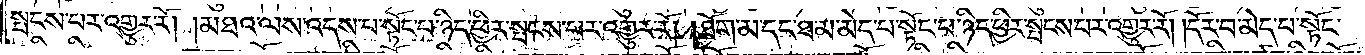སྤངས་པར་འགྱུར་རོ། །མཐའ་ལས་འདས་པ་སྟོང་པ་ཉིད་ཕྱིར་སྤངས་པར་འགྱུར་རོ། །ཐོག་མ་དང་ཐ་མ་མེད་པ་སྟོང་པ་ཉིད་ཕྱིར་སྤངས་པར་འགྱུར་རོ། །དོར་བ་མེད་པ་སྟོང་
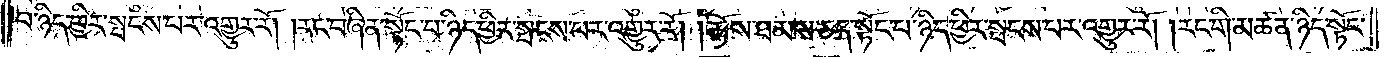པ་ཉིད་ཕྱིར་སྤངས་པར་འགྱུར་རོ། །རང་བཞིན་སྟོང་པ་ཉིད་ཕྱིར་སྤངས་པར་འགྱུར་རོ། །ཆོས་ཐམས་ཅད་སྟོང་པ་ཉིད་ཕྱིར་སྤངས་པར་འགྱུར་རོ། །རང་གི་མཚན་ཉིད་སྟོང་
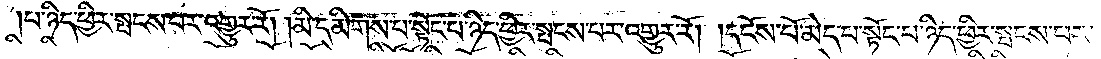པ་ཉིད་ཕྱིར་སྤངས་པར་འགྱུར་རོ། །མི་དམིགས་པ་སྟོང་པ་ཉིད་ཕྱིར་སྤངས་པར་འགྱུར་རོ། །དངོས་པོ་མེད་པ་སྟོང་པ་ཉིད་ཕྱིར་སྤངས་པར་
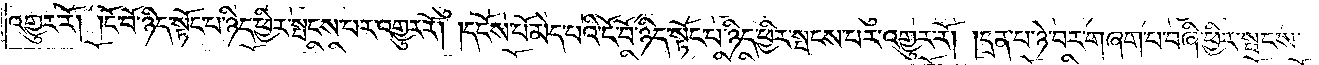འགྱུར་རོ། །ངོ་བོ་ཉིད་སྟོང་པ་ཉིད་ཕྱིར་སྤངས་པར་འགྱུར་རོ། །དངོས་པོ་མེད་པའི་ངོ་བོ་ཉིད་སྟོང་པ་ཉིད་ཕྱིར་སྤངས་པར་འགྱུར་རོ། །དྲན་པ་ཉེ་བར་གཞག་པ་བཞི་ཕྱིར་སྤངས་
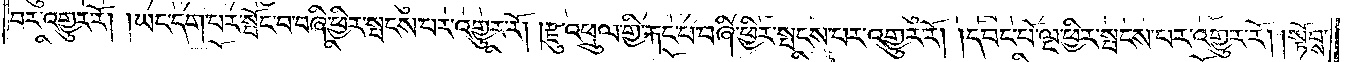བར་འགྱུར་རོ། །ཡང་དག་པར་སྤོང་བ་བཞི་ཕྱིར་སྤངས་པར་འགྱུར་རོ། །རྫུ་འཕྲུལ་གྱི་རྐང་པ་བཞི་ཕྱིར་སྤངས་པར་འགྱུར་རོ། །དབང་པོ་ལྔ་ཕྱིར་སྤངས་པར་འགྱུར་རོ། །སྟོབས་
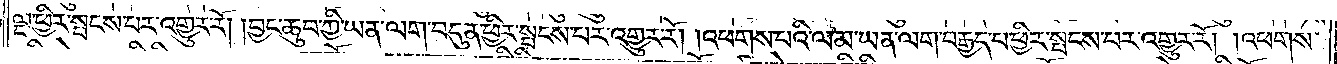ལྔ་ཕྱིར་སྤངས་པར་འགྱུར་རོ། །བྱང་ཆུབ་ཀྱི་ཡན་ལག་བདུན་ཕྱིར་སྤངས་པར་འགྱུར་རོ། །འཕགས་པའི་ལམ་ཡན་ལག་བརྒྱད་པ་ཕྱིར་སྤངས་པར་འགྱུར་རོ། །འཕགས་
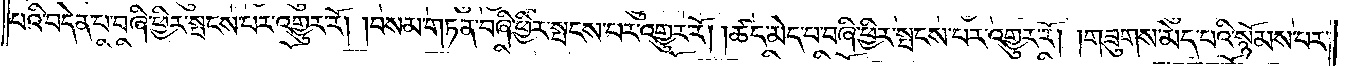པའི་བདེན་པ་བཞི་ཕྱིར་སྤངས་པར་འགྱུར་རོ། །བསམ་གཏན་བཞི་ཕྱིར་སྤངས་པར་འགྱུར་རོ། །ཚད་མེད་པ་བཞི་ཕྱིར་སྤངས་པར་འགྱུར་རོ། །གཟུགས་མེད་པའི་སྙོམས་པར་
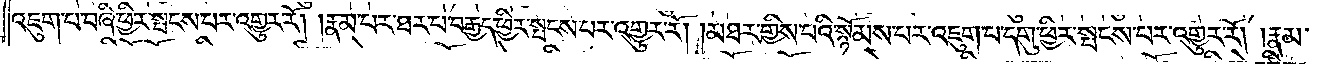འཇུག་པ་བཞི་ཕྱིར་སྤངས་པར་འགྱུར་རོ། །རྣམ་པར་ཐར་པ་བརྒྱད་ཕྱིར་སྤངས་པར་འགྱུར་རོ། །མཐར་གྱིས་པའི་སྙོམས་པར་འཇུག་པ་དགུ་ཕྱིར་སྤངས་པར་འགྱུར་རོ། །རྣམ་
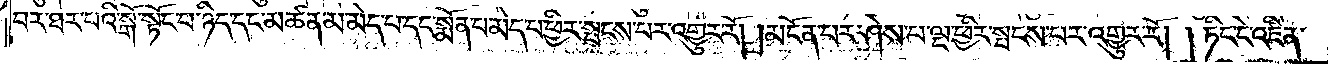པར་ཐར་པའི་སྒོ་སྟོང་པ་ཉིད་དང་མཚན་མ་མེད་པ་དང་སྨོན་པ་མེད་པ་ཕྱིར་སྤངས་པར་འགྱུར་རོ། །མངོན་པར་ཤེས་པ་ལྔ་ཕྱིར་སྤངས་པར་འགྱུར་རོ། །ཏིང་ངེ་འཛིན་
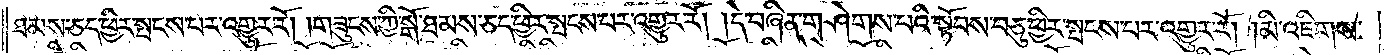ཐམས་ཅད་ཕྱིར་སྤངས་པར་འགྱུར་རོ། །གཟུངས་ཀྱི་སྒོ་ཐམས་ཅད་ཕྱིར་སྤངས་པར་འགྱུར་རོ། །དེ་བཞིན་གཤེགས་པའི་སྟོབས་བཅུ་ཕྱིར་སྤངས་པར་འགྱུར་རོ། །མི་འཇིགས་
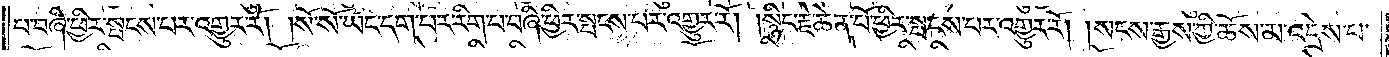པ་བཞི་ཕྱིར་སྤངས་པར་འགྱུར་རོ། །སོ་སོ་ཡང་དག་པར་རིག་པ་བཞི་ཕྱིར་སྤངས་པར་འགྱུར་རོ། །སྙིང་རྗེ་ཆེན་པོ་ཕྱིར་སྤངས་པར་འགྱུར་རོ། །སངས་རྒྱས་ཀྱི་ཆོས་མ་འདྲེས་པ་
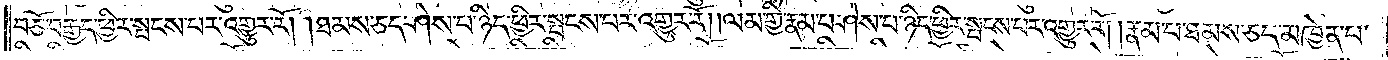བཅོ་བརྒྱད་ཕྱིར་སྤངས་པར་འགྱུར་རོ། །ཐམས་ཅད་ཤེས་པ་ཉིད་ཕྱིར་སྤངས་པར་འགྱུར་རོ། །ལམ་གྱི་རྣམ་པ་ཤེས་པ་ཉིད་ཕྱིར་སྤངས་པར་འགྱུར་རོ། །རྣམ་པ་ཐམས་ཅད་མཁྱེན་པ་
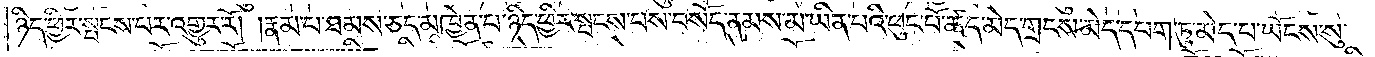ཉིད་ཕྱིར་སྤངས་པར་འགྱུར་རོ། །རྣམ་པ་ཐམས་ཅད་མཁྱེན་པ་ཉིད་ཕྱིར་སྤངས་པས་བསོད་ནམས་མ་ཡིན་པའི་ཕུང་པོ་ཚད་མེད་གྲངས་མེད་དཔག་ཏུ་མེད་པ་ཡོངས་སུ་
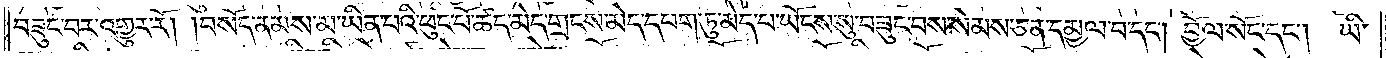བཟུང་བར་འགྱུར་རོ། །བསོད་ནམས་མ་ཡིན་པའི་ཕུང་པོ་ཚད་མེད་གྲངས་མེད་དཔག་ཏུ་མེད་པ་ཡོངས་སུ་བཟུང་བས་སེམས་ཅན་དམྱལ་བ་དང༌། བྱོལ་སོང་དང༌། ཡི་
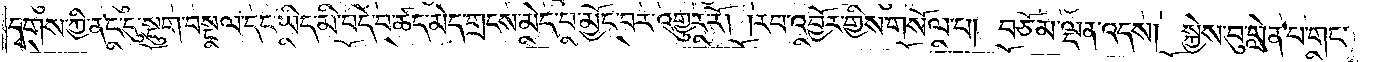དྭགས་ཀྱི་ནང་དུ་སྡུག་བསྔལ་དང་ཡིད་མི་བདེ་བ་ཚད་མེད་གྲངས་མེད་པ་མྱོང་བར་འགྱུར་རོ། །རབ་འབྱོར་གྱིས་གསོལ་པ། བཅོམ་ལྡན་འདས། སྐྱེས་བུ་གླེན་པ་གང་
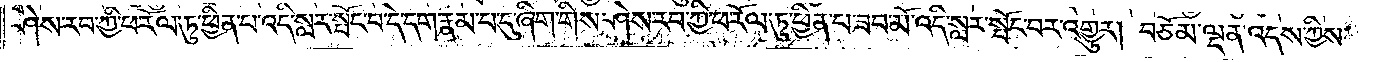ཤེས་རབ་ཀྱི་ཕ་རོལ་ཏུ་ཕྱིན་པ་འདི་སླར་སྤོང་བ་དེ་དག་རྣམ་པ་དུ་ཞིག་གིས་ཤེས་རབ་ཀྱི་ཕ་རོལ་ཏུ་ཕྱིན་པ་ཟབ་མོ་འདི་སླར་སྤོང་བར་འགྱུར། བཅོམ་ལྡན་འདས་ཀྱིས་
